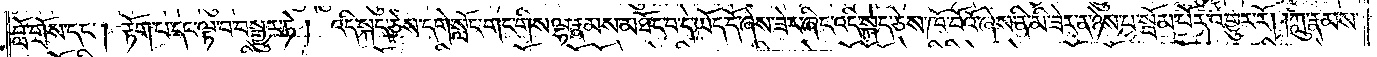བློ་གྲོས་དང༌། རྟོག་པ་དང་ལྟ་བ་བསྒྱུར་ཏེ། འདི་སྐད་ཅེས་དགེ་སློང་གང་གིས་ལྷ་རྣམས་མཐོང་བ་དེ་ཡོད་དོ་ཞེས་ཟེར་ཞིང་འདི་སྐད་ཅེས་ཁོ་བོའོ་ཞེས་ནི་མི་ཟེར་ན་ཉེས་པ་སྦོམ་པོར་འགྱུར་རོ། །ཀླུ་རྣམས་
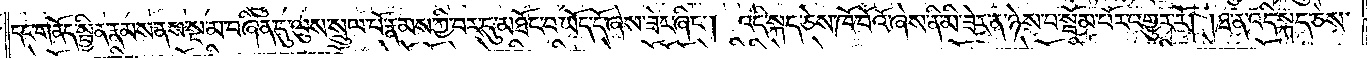དང་གནོད་སྦྱིན་རྣམས་ནས་སྔ་མ་བཞིན་དུ་ལུས་སྲུལ་པོ་རྣམས་ཀྱི་བར་དུ་མཐོང་བ་ཡོད་དོ་ཞེས་ཟེར་ཞིང༌། འདི་སྐད་ཅེས་ཁོ་བོའི་ཞེས་ནི་མི་ཟེར་ན་ཉེས་པ་སྦོམ་པོར་འགྱུར་རོ། །ཐ་ན་འདི་སྐད་ཅེས་
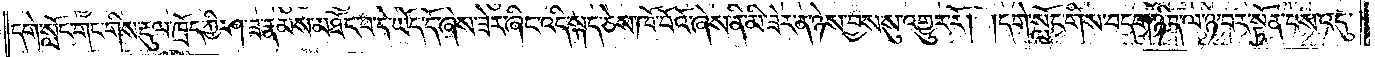དགེ་སློང་གང་གིས་རྡུལ་ཁྲོད་ཀྱི་ཤ་ཟ་རྣམས་མཐོང་བ་དེ་ཡོད་དོ་ཞེས་ཟེར་ཞིང་འདི་སྐད་ཅེས་ཁོ་བོའོ་ཞེས་ནི་མི་ཟེར་ན་ཉེས་བྱས་སུ་འགྱུར་རོ། །དགེ་སློང་གིས་བདག་ཉིད་ལ་ཉེ་བར་སྟོན་པས་འདུ་
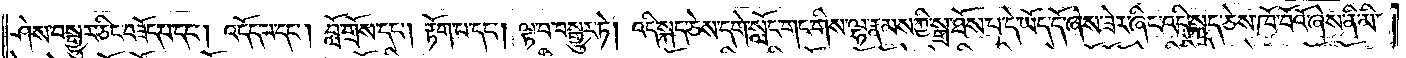ཤེས་བསྒྱུར་ཅིང་བཟོད་པ་དང༌། འདོད་པ་དང༌། བློ་གྲོས་དང༌། རྟོག་པ་དང༌། ལྟ་བ་བསྒྱུར་ཏེ། འདི་སྐད་ཅེས་དགེ་སློང་གང་གིས་ལྷ་རྣམས་ཀྱི་སྒྲ་ཐོས་པ་དེ་ཡོད་དོ་ཞེས་ཟེར་ཞིང་འདི་སྐད་ཅེས་ཁོ་བོའོ་ཞེས་ནི་མི་
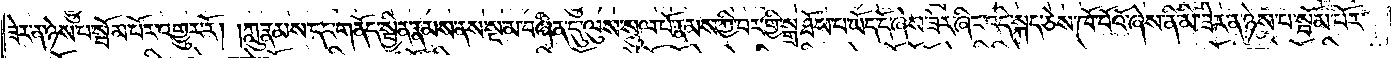ཟེར་ན་ཉེས་པ་སྦོམ་པོར་འགྱུར་རོ། །ཀླུ་རྣམས་དང་གནོད་སྦྱིན་རྣམས་ནས་སྔ་མ་བཞིན་དུ་ལུས་སྲུལ་པོ་རྣམས་ཀྱི་བར་གྱི་སྒྲ་ཐོས་པ་ཡོད་དོ་ཞེས་ཟེར་ཞིང་འདི་སྐད་ཅེས་ཁོ་བོའོ་ཞེས་ནི་མི་ཟེར་ན་ཉེས་པ་སྦོམ་པོར་
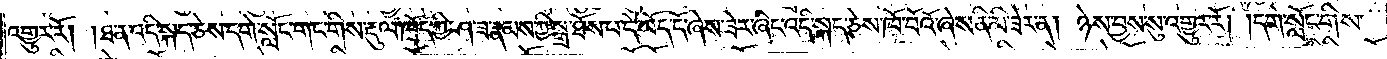འགྱུར་རོ། །ཐ་ན་འདི་སྐད་ཅེས་དགེ་སློང་གང་གིས་རྡུལ་ཁྲོད་ཀྱི་ཤ་ཟ་རྣམས་ཀྱི་སྒྲ་ཐོས་པ་དེ་ཡོད་དོ་ཞེས་ཟེར་ཞིང་འདི་སྐད་ཅེས་ཁོ་བོའོ་ཞེས་ནི་མི་ཟེར་ན། ཉེས་བྱས་སུ་འགྱུར་རོ། །དགེ་སློང་གིས་
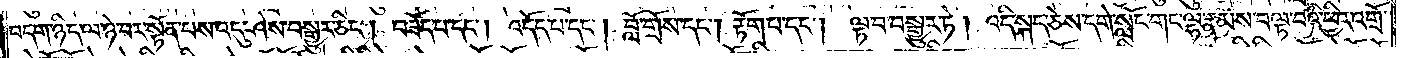བདག་ཉིད་ལ་ཉེ་བར་སྟོན་པས་འདུ་ཤེས་བསྒྱུར་ཅིང༌། བཟོད་པ་དང༌། འདོད་པ་དང༌། བློ་གྲོས་དང༌། རྟོག་པ་དང༌། ལྟ་བ་བསྒྱུར་ཏེ། འདི་སྐད་ཅེས་དགེ་སློང་གང་ལྷ་རྣམས་བལྟ་བའི་ཕྱིར་འགྲོ་
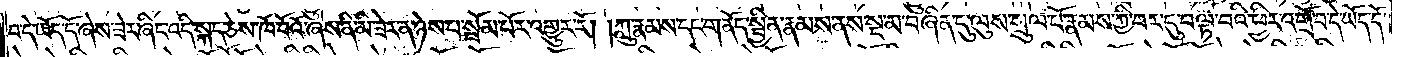བ་དེ་ཡོད་དོ་ཞེས་ཟེར་ཞིང་འདི་སྐད་ཅེས་ཁོ་བོའོ་ཞེས་ནི་མི་ཟེར་ན་ཉེས་པ་སྦོམ་པོར་འགྱུར་རོ། །ཀླུ་རྣམས་དང་གནོད་སྦྱིན་རྣམས་ནས་སྔ་མ་བཞིན་དུ་ལུས་སྲུལ་པོ་རྣམས་ཀྱི་བར་དུ་བལྟ་བའི་ཕྱིར་འགྲོ་བ་དེ་ཡོད་དོ་
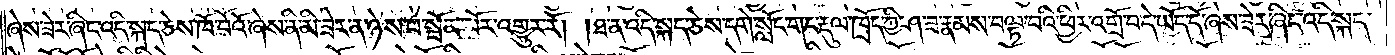ཞེས་ཟེར་ཞིང་འདི་སྐད་ཅེས་ཁོ་བོའོ་ཞེས་ནི་མི་ཟེར་ན་ཉེས་པ་སྦོམ་པོར་འགྱུར་རོ། །ཐ་ན་འདི་སྐད་ཅེས་དགེ་སློང་གང་རྡུལ་ཁྲོད་ཀྱི་ཤ་ཟ་རྣམས་བལྟ་བའི་ཕྱིར་འགྲོ་བ་དེ་ཡོད་དོ་ཞེས་ཟེར་ཞིང་འདི་སྐད་
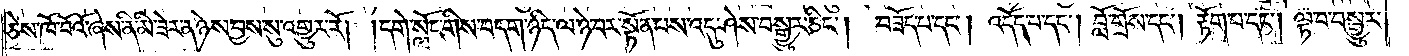ཅེས་ཁོ་བོའོ་ཞེས་ནི་མི་ཟེར་ན་ཉེས་བྱས་སུ་འགྱུར་རོ། །དགེ་སློང་གིས་བདག་ཉིད་ལ་ཉེ་བར་སྟོན་པས་འདུ་ཤེས་བསྒྱུར་ཅིང༌། བཟོད་པ་དང༌། འདོད་པ་དང༌། བློ་གྲོས་དང༌། རྟོག་པ་དང༌། ལྟ་བ་བསྒྱུར་
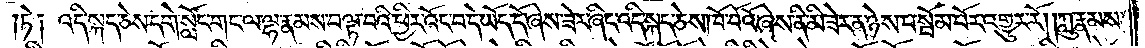ཏེ༑ འདི་སྐད་ཅེས་དགེ་སློང་གང་ལ་ལྷ་རྣམས་བལྟ་བའི་ཕྱིར་འོང་བ་དེ་ཡོད་དོ་ཞེས་ཟེར་ཞིང་འདི་སྐད་ཅེས་ཁོ་བོའོ་ཞེས་ནི་མི་ཟེར་ན་ཉེས་པ་སྦོམ་པོར་འགྱུར་རོ། །ཀླུ་རྣམས་
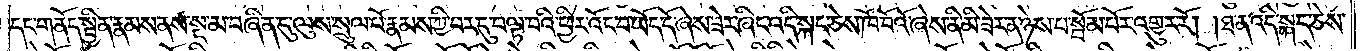དང་གནོད་སྦྱིན་རྣམས་ནས་སྔ་མ་བཞིན་དུ་ལུས་སྲུལ་པོ་རྣམས་ཀྱི་བར་དུ་བལྟ་བའི་ཕྱིར་འོང་བ་ཡོད་དོ་ཞེས་ཟེར་ཞིང་འདི་སྐད་ཅེས་ཁོ་བོའོ་ཞེས་ནི་མི་ཟེར་ན་ཉེས་པ་སྦོམ་པོར་འགྱུར་རོ། །ཐ་ན་འདི་སྐད་ཅེས་
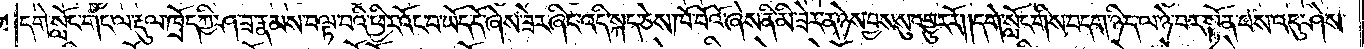དགེ་སློང་གང་ལ་རྡུལ་ཁྲོད་ཀྱི་ཤ་ཟ་རྣམས་བལྟ་བའི་ཕྱིར་འོང་བ་ཡོད་དོ་ཞེས་ཟེར་ཞིང་འདི་སྐད་ཅེས་ཁོ་བོའོ་ཞེས་ནི་མི་ཟེར་ན་ཉེས་བྱས་སུ་འགྱུར་རོ༎དགེ་སློང་གིས་བདག་ཉིད་ལ་ཉེ་བར་སྟོན་པས་འདུ་ཤེས་
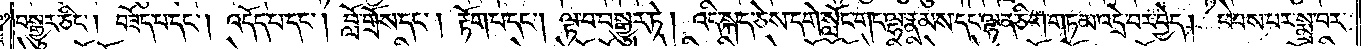བསྒྱུར་ཅིང༌། བཟོད་པ་དང༌། འདོད་པ་དང༌། བློ་གྲོས་དང༌། རྟོག་པ་དང༌། ལྟ་བ་བསྒྱུར་ཏེ། །འདི་སྐད་ཅེས་དགེ་སློང་གང་ལྷ་རྣམས་དང་ལྷན་ཅིག་གཏམ་འདྲེ་བར་བྱེད། ཕེབས་པར་སྨྲ་བར་
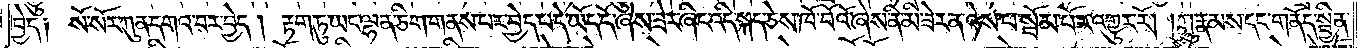བྱེད། སོ་སོར་ཀུན་དགའ་བར་བྱེད། རྟག་ཏུ་ཡང་ལྷན་ཅིག་གནས་པར་བྱེད་པ་དེ་ཡོད་དོ་ཞེས་ཟེར་ཞིང་འདི་སྐད་ཅེས་ཁོ་བོའོ་ཞེས་ནི་མི་ཟེར་ན་ཉེས་པ་སྦོམ་པོར་འགྱུར་རོ། །ཀླུ་རྣམས་དང་གནོད་སྦྱིན་
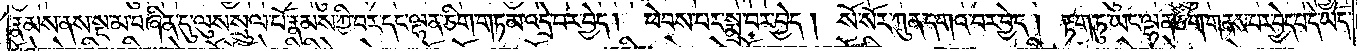རྣམས་ནས་སྔ་མ་བཞིན་དུ་ལུས་སྲུལ་པོ་རྣམས་ཀྱི་བར་དང་ལྷན་ཅིག་གཏམ་འདྲེ་བར་བྱེད། ཕེབས་པར་སྨྲ་བར་བྱེད། སོ་སོར་ཀུན་དགའ་བར་བྱེད། རྟག་ཏུ་ཡང་ལྷན་ཅིག་གནས་པར་བྱེད་པ་དེ་ཡོད་
